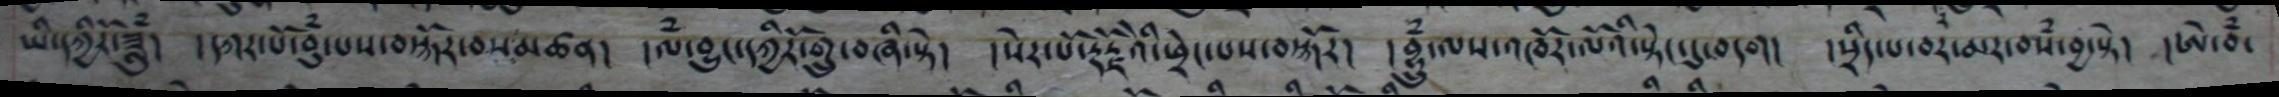ཡ་དཀྱིརོ་ཟླུྃ།  །དཀར་པོ་བུྃ་པས་བསྐོར་བས་མཚན།  །ལྃ་བྱུང་དཀྱིརོ་གྲུ་བཞི་སྟེ།   །སེར་པོ་རྡོརྗེའི་ཕྲེང་པས་བསྐོར།  །བྷྲུཾ་ལས་འཁོར་ལོའི་སྟེང་དུ་བདག།  །སྲིད་པ་བར་མར་བསཾ་བྱ་སྟེ།  །ཨེ་བཾ་
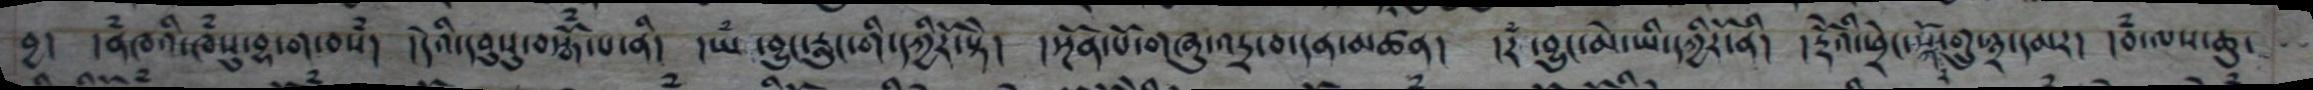བྱ། །ནཾཁའི་ཁཾསུ་བྷ་ག་བསཾ། །དེའི་དབུསུ་བསྒོཾ་པ་ནི། །ཡཾ་བྱུང་རླུང་གི་དཀྱིོར་སྟེ། །སྔོན་པོ་གཞུ་འདྲ་བ་དན་མཚན། །རཾ་བྱུང་མེ་ཡི་དཀྱིོར་ནི། །རྡོེའི་ཕྲེང་སྐོ་གྲུ་༣་དམར། །བཾ་ལས་ཆུ་
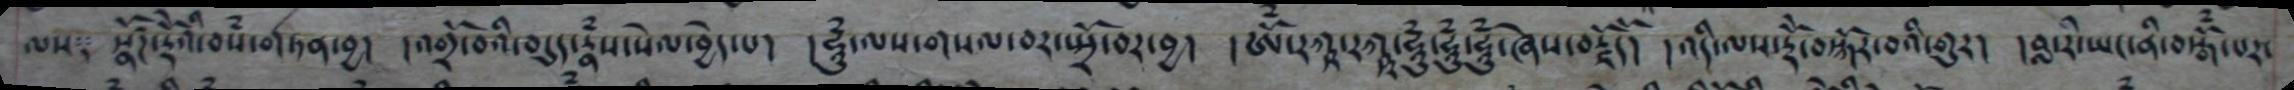ལས༑ སྣོཌ་རྡོེའི་བསཾ་གཏན་བྱ། །འགྲོ་བའི་བདུད་རྣཾས་སེལ་བྱེད་པ། །ཧཱུཾ་ལས་གསལ་བར་སྤྲོ་བར་བྱ། །ཨོཾ་རཀྵ་རཀྵ་ཧཱུཾ་ཧཱུཾ་ཧཱུཾ་ཞེས་བརྗོད། །དི་ལས་རྡོེ་བསྐོར་བའི་གུར། །བླ་རི་ཡང་ནི་བསྒོཾ་པར་
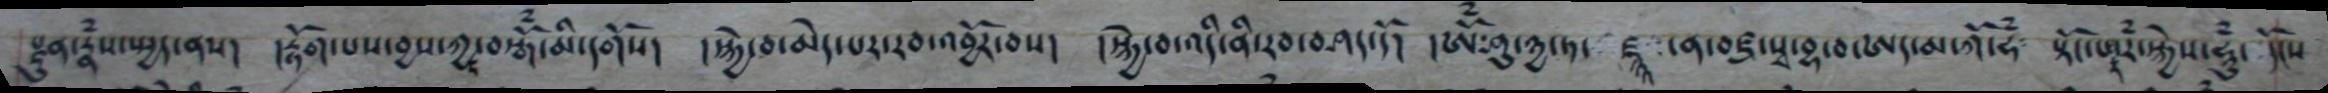སྫུན་རྣཾས་སྤྱད་ནས། །རྟོག་པས་བྱས་ཀྱ་བསྒོཾ་མི་དགོས། །སྐྱེ་བ་མེད་པར་རབ་འབྱོར་བས། །སྐྱེ་བ་འདི་ནི་རབ་བཤད་དོ། །ཨོཾ་ཤུ་ཉྱ་ཏ་ ཛྙཱ ་ན་བཛྲ་སྭ་བྷ་བ་ཨད་མ་ཀོ་ཧཾ༴ སྟོང་པ་རཾ་སྐྱེས་ཧཱུཾ་ དངོས
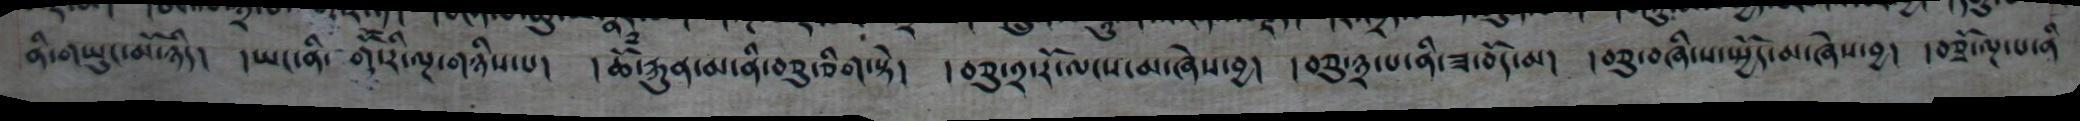ནི་གཡུང་མོ་ཉིད། །ཡང་ནི་ གོོ་རི་ལྔ་གཉིས་པ། །ཆོཾ་རྐུན་མ་ནི་བཅུ་ཅིག་སྟེ། །བཅུ་༢་རོ་ལངས་མ་ཞེས་བྱ། །བཅུ་༣་པ་ནི་ཟ་བོད་མ། །བཅུ་བཞི་ས་སྤྱོད་མ་ཞེས་བྱ། །བཅྭོ་ལྔ་པ་ནི
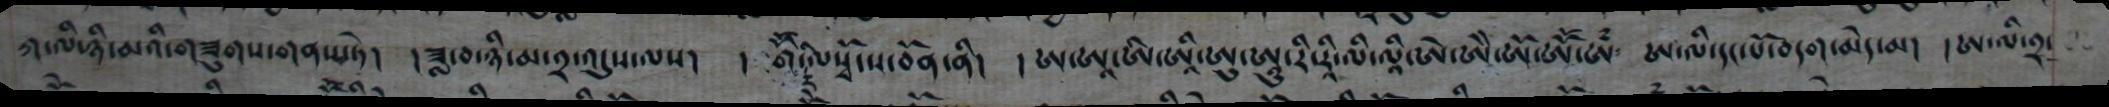ཀ་ལི་ཉི་མའི་གཟུགས་གནས་པ་ཏེ།   །ཟླ་བ་ཉི་མ་༢་འདུས་ལས།   ། གོོང་ལིསྭོ་ས་བོན་ནི།   །ཨ་ཨ་ཨི་ཨི་ཨུ་ཨུ་རི་རཱི་ལི་ལཱི་ཨེ་ཨེེ་ཨོ་ཨོོ་ཨཾ་   ཨ་ལི་དང་པོ་བདག་མེད་མ།   །ཨ་ལི་༢་
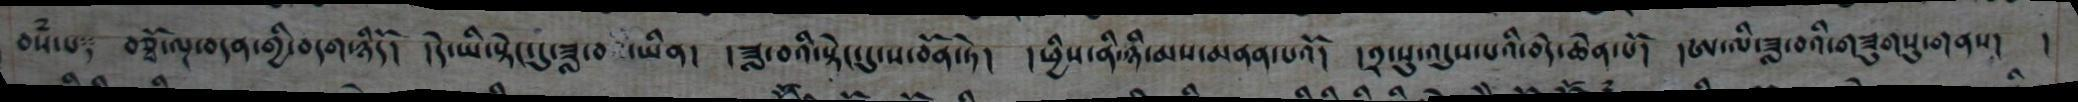བསཾ་པ༴   བཅོ་ལྔ་བདན་གྱི་བདག་ཉིདོ།   །དེ་ཡི་སྟེང་དུ་ཟླ་བ ཡིན།  །ཟླ་བའི་སྟེང་དུ་ས་བོན་ཏེ།   །ཕྱིས་ནི་ཉི་མས་མནན་པའོ།  །༢་སུ་འདུས་པའི་བདེ་ཆེན་པོ།  །ཨ་ལི་ཟླ་བའི་གཟུགསུ་གནས།  །
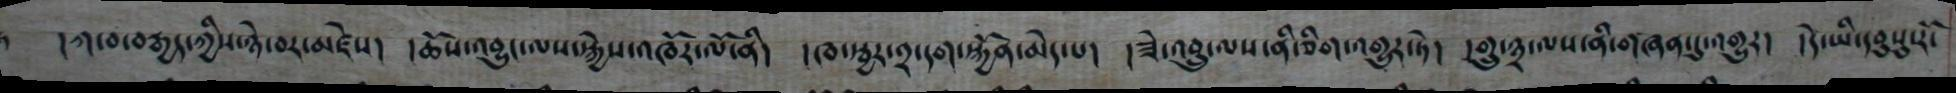།ཀ་བ་བརྒྱད་ཀྱིས་ཉེ་བར་མཛེས།  །ཆོས་འབྱུང་ལས་སྐྱེས་འཁོར་ལོ་ནི།  །ཁ་སྦྱར་༢་དག་སྐྱོན་མེད་པ།  །ཟེ་འབྲུ་ལས་ནི་ཅིག་འགྱུར་ཏེ།  །གྲུ་༣་ལས་ནི་གཞན་དུ་འགྱུར།  །དེ་ཡི་དབུསུ་རོ་
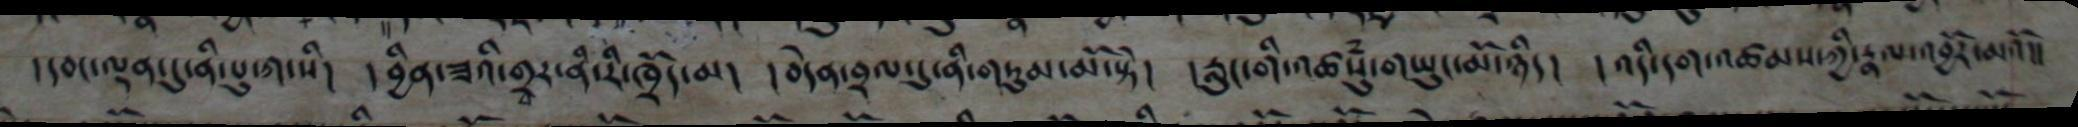།དབང་ལྡན་དུ་ནི་པུ་ཀ་སི།  །བྱིན་ཟའི་གྲྭར་ནི་རི་ཁྲོད་མ།   །བདེན་བྲལ་དུ་ནི་གཏུམ་མོ་སྟེ།   །རླུང་གི་འཚཾསུ་གཡང་མོ་ཉིད།   །འདི་དག་འཚམས་ཀྱི་རྣལ་འབྱོར་མའོ།།
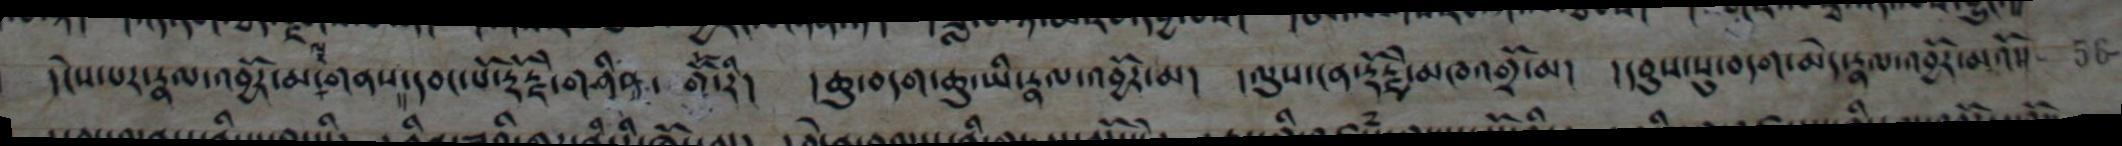།ངེས་པར་རྣལ་འབྱོར་མ་གནས་དབང་པོ་རྡོ་རྗེ་གཤིན་  གོ་རི།   ། ཆུ་བདག་ཆུ་ཡི་རྣལ་འབྱོར་མ།   །ལུས་ངན་རྡེ་རྗེ་མཁའགྲོ་མ།   །དབུས་སུ་བདག་མེད་རྣལ་འབྱོར་མའོ།།
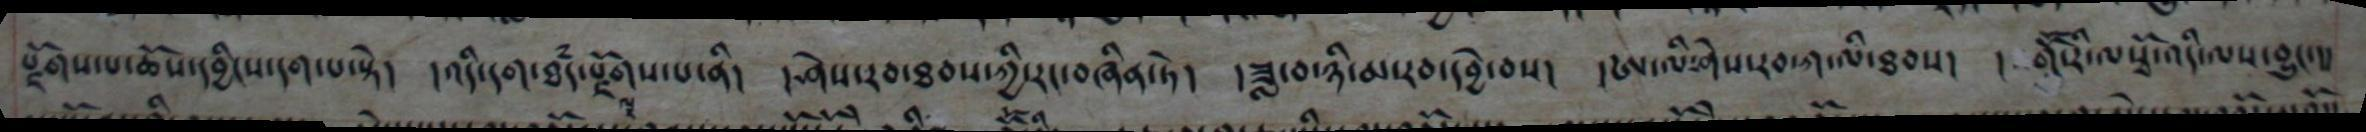རྫོགས་པ་ཆོས་དབྱིངས་དག་པ་སྟེ།  །འདི་དག་ཐཾད་རྫོགས་པ་ནི།   །ཤེས་རབ་ཐབས་ཀྱི་རང་བཞིན་ཏེ།    །ཟླ་བ་ཉི་མ་རབ་དབྱེ་བས།   །ཨ་ལི་ཤེས་རབ་ཀ་ལི་ཐབས།  །གོོ་རི་ལ་སྭོ་འདི་ལས་བྱུང།།
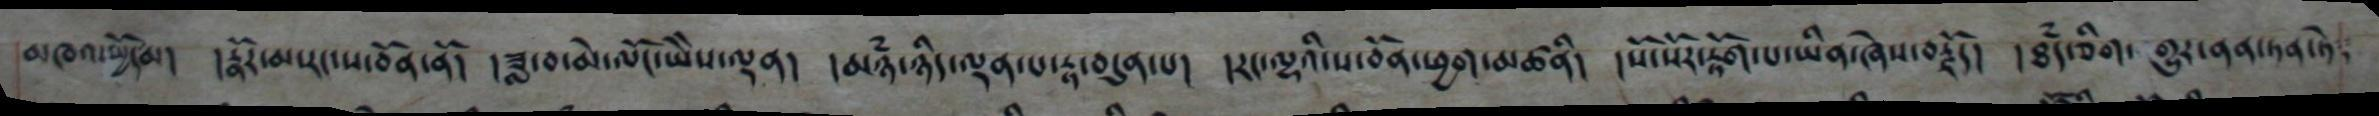མཁའ་སྤྱོདམ།   །རྣོར་མ་རང་ས་བོན་ནོ།   །ཟླ་བ་མེ་ལོང་ཡེེས་ལྡན།   །མཉཾ་ཉིད་ལྡན་པ་རྟ་བདུན་པ།  །རང་ལྷའི་ས་བོན་ཕྱག་མཚནི།   །སོ་སོར་རྟོག་པ་ཡིན་ཞེས་བརྗོད།  །ཐཾད་ཅིག་  གྱུར་ནན་ཏན་ཏེ་
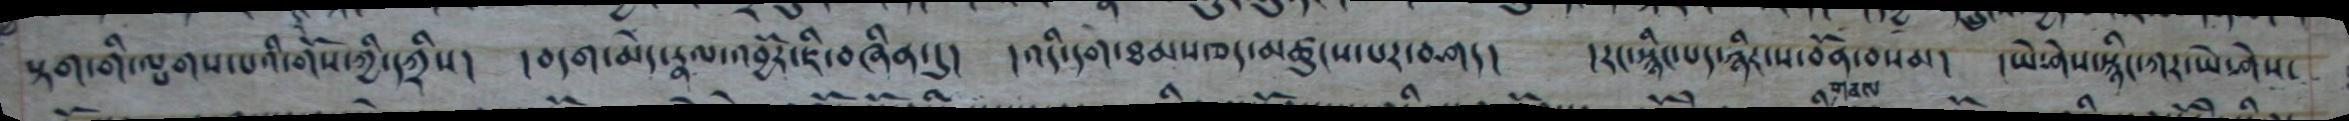སྟག་གི་ལྤགས་པའི་གོས་ཀྱི་དཀྲིས།   །བདག་མེད་རྣལ་འབྱོར་ཇི་བཞིན་དུ།   །འདི་དག་ཐམས་ཅད་མཚུངས་པར་བཤད།   །རང་སྙིང་པད་ཉིར་ས་བོན་བསམ།  །ཡེ་ཤེས་སྙིང་ཀར་ཡེ་ཤེས་
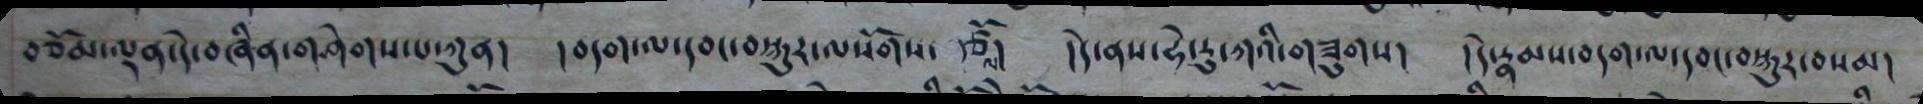བཅོམ་ལྡན་དེ་བཞིན་གཤེགས་པ་ཀུན། །བདག་ལ་དབང་བསྐུར་ལསོགས་ཙོ། །དེ་ནས་ཧེ་རུ་ཀའི་གཟུགས། །དེ་རྣམས་བདག་ལ་དབང་བསྐུར་བསམ།
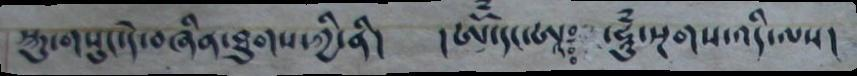སྐུ་གསུང་དེ་བཞིན་ཐུགས་ཀྱི་ནི། །ཨོཾ་དང་ཨཱ༔ ་ཧཱུཾ་སྔགས་འདི་ལས།
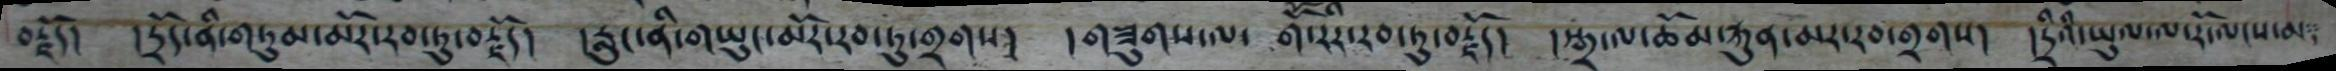བརྗོད། །དྲོད་ནི་གཏུམ་མོར་རབ་ཏུ་བརྗོད། །རླུང་ནི་གཡུང་མོར་རབ་ཏུ་གྲགས། །གཟུགས་ལ་གཽ་རིར་རབ་ཏུ་བརྗོད། །སྒྲ་ལ་ཆོམ་རྐུན་མར་རབ་གྲགས། །དྲིའི་ཡུལ་ལ་རོ་ལངས་མ༑
